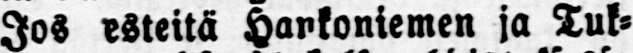Jos esteitä Hankoniemen ja Tuk-
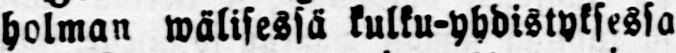holman wälisessä kulku-yhdistyksessa
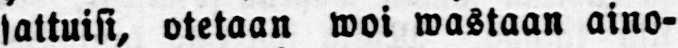sattuisi, otetaan woi wastaan aino-
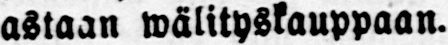astaan wälityskauppaan.
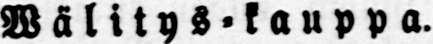Wälitys-kauppa.
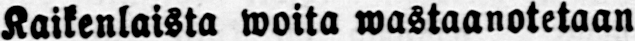Kaikenlaista woita wastaanotetaan
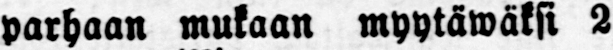parhaan mukaan myytäwäksi 2%
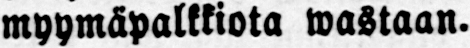myymäpalkkiota wastaan.
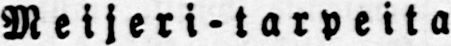Meijeri-tarpeita
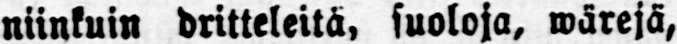niinkuin dritteleitä, suoloja, wärejä,
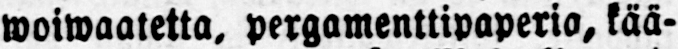woiwaatetta, pergamenttipaperia, kää-
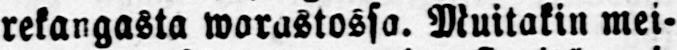rekangasta warastossa. Muitakin mei-
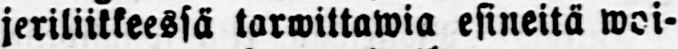jeriliikkeessä tarwittawia esineitä woi-
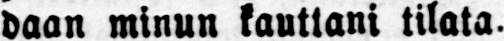daan minun kauttani tilata.
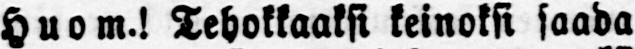Huom! Tehokkaaksi keinoksi saada
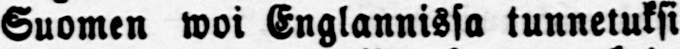Suomen woi Englannissa tunnetuksi
